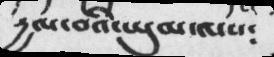དྱལ་བའི་ཡུམ་ལས༴
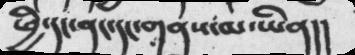ཕྱི་དང་ནང་དང་གནས་མ་ཡིན།།
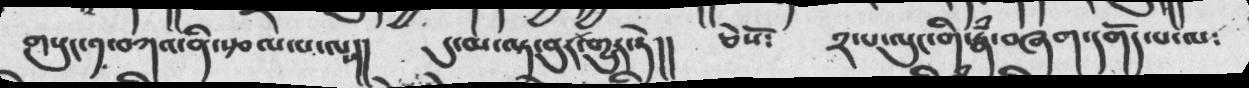གསུང་༡་བཀའ་ནི་རྩལ་པ་ལས།།  དུ་མ་ལྟ་བུར་གྱུར་ཏེ།།  ཅེསོ༴  ༢་པ་ལུང་གི་རྣཾ་བཞག་དགོད་པ་ལ༴
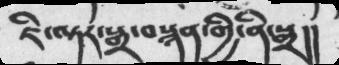ཇི་ལྟར་སྒྲ་བསྙན་གྱི་ནི་སྒྲ།།
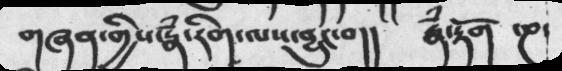གཞན་གྱིས་རྣཾ་རིག་ལས་བྱུང་བ།།  རྣཾ་རྟོག  ཎ་
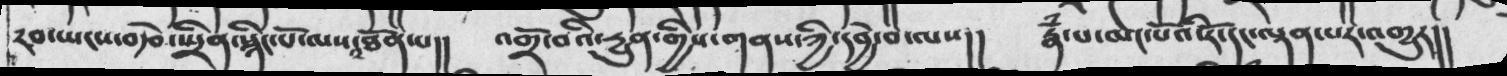རབ་ཡངས་བརྩེ་སྤྲིན་སྙིང་པོ་ལས་འཐོན་པ།།  འགྲོ་བའི་དྱུན་གྱིས་གནས་ཀྱི་དབྱེ་བ་ལས།།  རྣཾ་པ་མང་པོའི་རོ་དང་ལྡན་པར་འགྱུར།།
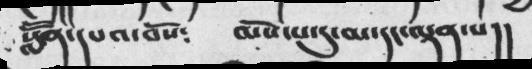སློོན་དཔའ་བོས༴   མོས་པ་དུ་མ་དང་ལྡན་པ།།
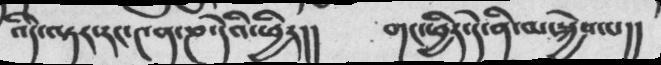འདི་ལྟར་རང་༤ན་ཎ་དེའི་ཕྱིར།།  གང་ཕྱིར་དེ་ནི་མ་སྐྱེས་པ།།
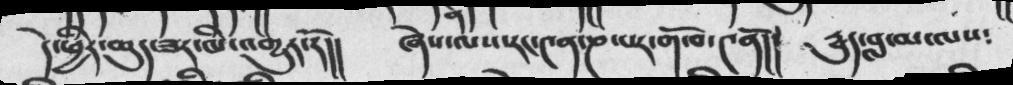དེ་ཕྱིར་ཆུད་ཟར་མི་འགྱུར་རོ།།  ཞེསལས་རང་༤ན་ཎ་པར་གོ་བ་༤ནོ།།  དྱུད་བླ་མ་ལས༴
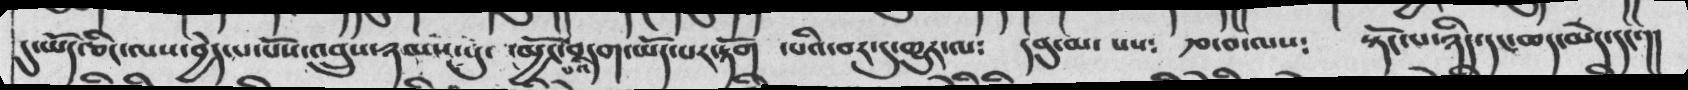དུ་ཡོད་ཅིང་ལས་བྱེད་པ་པོས་འབྲུས་ཉམས་སུ་  ་མྱོང་པའི་བདག་ཡོད་པར་རྟོག  ་པའི་བར་དུ་གྱུར་ལ༴  དབུ་མ་ པས༴  རྩ་བ་ལས༴  སྟོང་པ་ཉིད་དང་ཆད་མེད་དང་།།
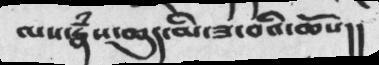ལས་རྣཾས་ཆུད་མི་ཟ་བའི་ཆོས།།
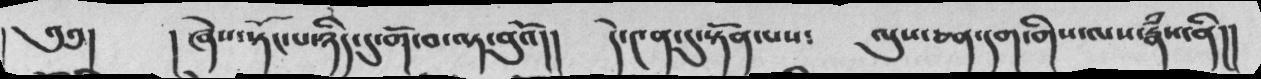༄༅།   ། ཞེས་སྟོང་པ་ཉིད་དུ་གོ་བ་ལྟ་བུའོ།།  དེ་༤ན་དུ་སྟོན་པས༴  ལུས་ཅན་དག་གིས་ལས་རྣཾས་ནི།།
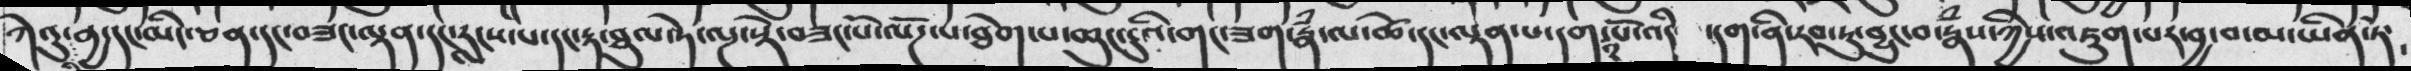ཀེའུ་བྱ་དང་མིང་ཅན་དང་བཟང་ལྡན་དང་རླངས་པ་དང་རྟ་ཐུལ་ཏེ་ལྔ་སྡེ་བཟང་པོ་ལོཌ་པ་ཐེག་པ་ཆུང་ངུའི་གང་ཟག་རྣཾ་ལ་ཚེ་དང་ལྡན་པ་དག་༢་པོ་འདི  ་དག་ནི་རབ་ཏུ་བྱུང་བ་རྣཾས་ཀྱིས་འཇུག་པར་བྱ་བ་མ་ཡིན་ཏེ༴
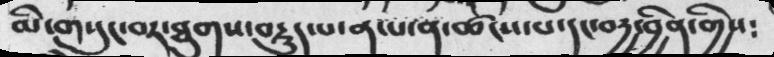མི་གསུང་བར་ཐུགས་བདྱུད་པ་ན་ཚངས་པ་དང་བདྱ་བྱིན་གྱིས༴
